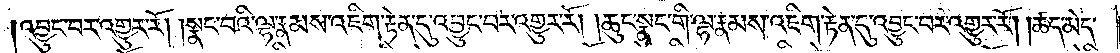འབྱུང་བར་འགྱུར་རོ། །སྣང་བའི་ལྷ་རྣམས་འཇིག་རྟེན་དུ་འབྱུང་བར་འགྱུར་རོ། །ཆུང་སྣང་གི་ལྷ་རྣམས་འཇིག་རྟེན་དུ་འབྱུང་བར་འགྱུར་རོ། །ཚད་མེད་
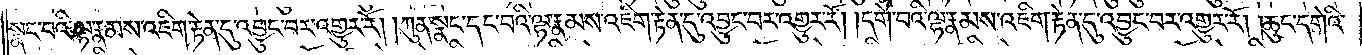སྣང་བའི་ལྷ་རྣམས་འཇིག་རྟེན་དུ་འབྱུང་བར་འགྱུར་རོ། །ཀུན་སྣང་དང་བའི་ལྷ་རྣམས་འཇིག་རྟེན་དུ་འབྱུང་བར་འགྱུར་རོ། །དགེ་བའི་ལྷ་རྣམས་འཇིག་རྟེན་དུ་འབྱུང་བར་འགྱུར་རོ། །ཆུང་དགེའི་
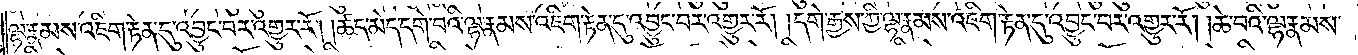ལྷ་རྣམས་འཇིག་རྟེན་དུ་འབྱུང་བར་འགྱུར་རོ། །ཚད་མེད་དགེ་བའི་ལྷ་རྣམས་འཇིག་རྟེན་དུ་འབྱུང་བར་འགྱུར་རོ། །དགེ་རྒྱས་ཀྱི་ལྷ་རྣམས་འཇིག་རྟེན་དུ་འབྱུང་བར་འགྱུར་རོ། །ཆེ་བའི་ལྷ་རྣམས་
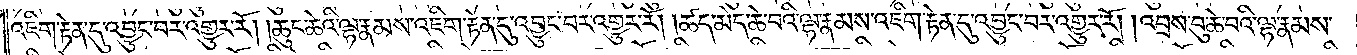འཇིག་རྟེན་དུ་འབྱུང་བར་འགྱུར་རོ། །ཆུང་ཆེའི་ལྷ་རྣམས་འཇིག་རྟེན་དུ་འབྱུང་བར་འགྱུར་རོ། །ཚད་མེད་ཆེ་བའི་ལྷ་རྣམས་འཇིག་རྟེན་དུ་འབྱུང་བར་འགྱུར་རོ། །འབྲས་བུ་ཆེ་བའི་ལྷ་རྣམས་
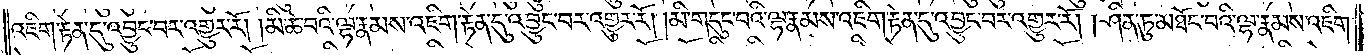འཇིག་རྟེན་དུ་འབྱུང་བར་འགྱུར་རོ། །མི་ཆེ་བའི་ལྷ་རྣམས་འཇིག་རྟེན་དུ་འབྱུང་བར་འགྱུར་རོ། །མི་གདུང་བའི་ལྷ་རྣམས་འཇིག་རྟེན་དུ་འབྱུང་བར་འགྱུར་རོ། །ཤིན་ཏུ་མཐོང་བའི་ལྷ་རྣམས་འཇིག་
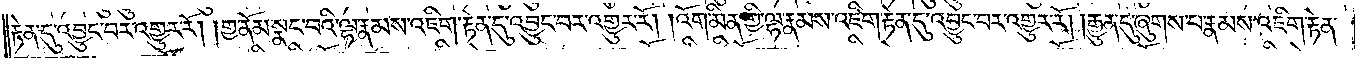རྟེན་དུ་འབྱུང་བར་འགྱུར་རོ། །གྱ་ནོམ་སྣང་བའི་ལྷ་རྣམས་འཇིག་རྟེན་དུ་འབྱུང་བར་འགྱུར་རོ། །འོག་མིན་གྱི་ལྷ་རྣམས་འཇིག་རྟེན་དུ་འབྱུང་བར་འགྱུར་རོ། །རྒྱུན་དུ་ཞུགས་པ་རྣམས་འཇིག་རྟེན་
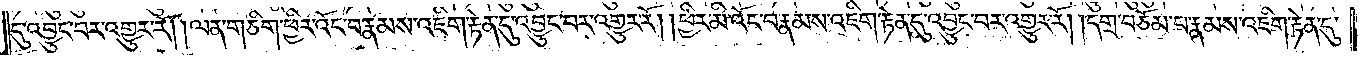དུ་འབྱུང་བར་འགྱུར་རོ། །ལན་གཅིག་ཕྱིར་འོང་བ་རྣམས་འཇིག་རྟེན་དུ་འབྱུང་བར་འགྱུར་རོ། །ཕྱིར་མི་འོང་བ་རྣམས་འཇིག་རྟེན་དུ་འབྱུང་བར་འགྱུར་རོ། །དགྲ་བཅོམ་པ་རྣམས་འཇིག་རྟེན་དུ་
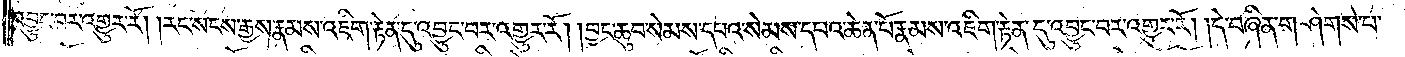འབྱུང་བར་འགྱུར་རོ། །རང་སངས་རྒྱས་རྣམས་འཇིག་རྟེན་དུ་འབྱུང་བར་འགྱུར་རོ། །བྱང་ཆུབ་སེམས་དཔའ་སེམས་དཔའ་ཆེན་པོ་རྣམས་འཇིག་རྟེན་དུ་འབྱུང་བར་འགྱུར་རོ། །དེ་བཞིན་གཤེགས་པ་
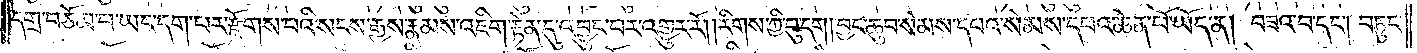དགྲ་བཅོམ་པ་ཡང་དག་པར་རྫོགས་པའི་སངས་རྒྱས་རྣམས་འཇིག་རྟེན་དུ་འབྱུང་བར་འགྱུར་རོ། །རིགས་ཀྱི་བུ་དག། བྱང་ཆུབ་སེམས་དཔའ་སེམས་དཔའ་ཆེན་པོ་ཡོད་ན། བཟའ་བ་དང༌། བཏུང་
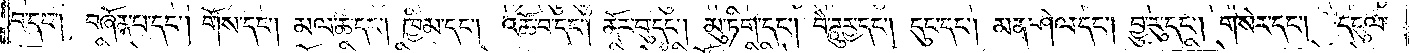བ་དང༌། བཞོན་པ་དང༌། གོས་དང༌། མལ་ཆ་དང༌། ཁྱིམ་དང༌། འཚོ་བ་དང༌། ནོར་བུ་དང༌། མུ་ཏིག་དང༌། བཻ་ཌཱུཪྻ་དང༌། དུང་དང༌། མན་ཤེལ་དང༌། བྱུ་རུ་དང༌། གསེར་དང༌། དངུལ་
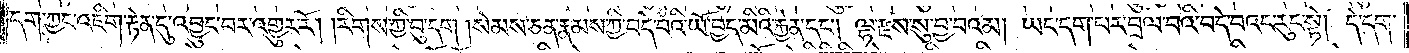དག་ཀྱང་འཇིག་རྟེན་དུ་འབྱུང་བར་འགྱུར་རོ། །རིགས་ཀྱི་བུ་དག །སེམས་ཅན་རྣམས་ཀྱི་བདེ་བའི་ཡོ་བྱད་མིའི་རྐྱེན་དང༌། ལྷ་རྫས་སུ་བྱ་བའམ། ཡང་དག་པར་བྲལ་པའི་བདེ་བའང་རུང་སྟེ། དེ་དག་
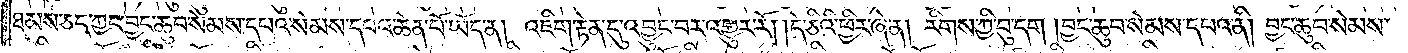ཐམས་ཅད་ཀྱང་བྱང་ཆུབ་སེམས་དཔའ་སེམས་དཔའ་ཆེན་པོ་ཡོད་ན། འཇིག་རྟེན་དུ་འབྱུང་བར་འགྱུར་རོ། །དེ་ཅིའི་ཕྱིར་ཞེ་ན། རིགས་ཀྱི་བུ་དག །བྱང་ཆུབ་སེམས་དཔའ་ནི། བྱང་ཆུབ་སེམས་
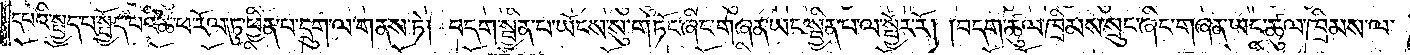དཔའི་སྤྱད་པ་སྤྱོད་པའི་ཚེ་ཕ་རོལ་ཏུ་ཕྱིན་པ་དྲུག་ལ་གནས་ཏེ། བདག་སྦྱིན་པ་ཡོངས་སུ་གཏོང་ཞིང་གཞན་ཡང་སྦྱིན་པ་ལ་སྦྱོར་རོ། །བདག་ཚུལ་ཁྲིམས་སྲུང་ཞིང་གཞན་ཡང་ཚུལ་ཁྲིམས་ལ་
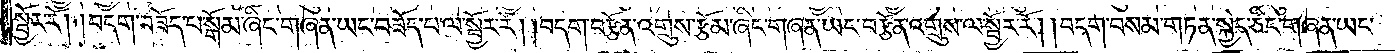སྦྱོར་རོ། །བདག་བཟོད་པ་སྒོམ་ཞིང་གཞན་ཡང་བཟོད་པ་ལ་སྦྱོར་རོ། །བདག་བརྩོན་འགྲུས་རྩོམ་ཞིང་གཞན་ཡང་བརྩོན་འགྲུས་ལ་སྦྱོར་རོ། །བདག་བསམ་གཏན་སྐྱེད་ཅིང་གཞན་ཡང་
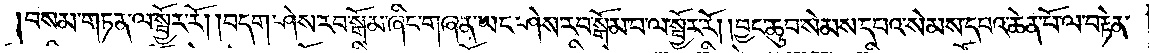བསམ་གཏན་ལ་སྦྱོར་རོ། །བདག་ཤེས་རབ་སྒོམ་ཞིང་གཞན་ཡང་ཤེས་རབ་སྒོམ་པ་ལ་སྦྱོར་རོ། །བྱང་ཆུབ་སེམས་དཔའ་སེམས་དཔའ་ཆེན་པོ་ལ་བརྟེན་
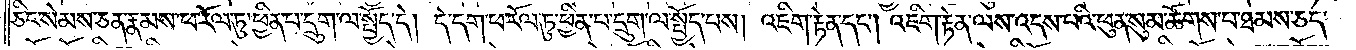ཅིང་སེམས་ཅན་རྣམས་ཕ་རོལ་ཏུ་ཕྱིན་པ་དྲུག་ལ་སྤྱོད་དེ། དེ་དག་ཕ་རོལ་ཏུ་ཕྱིན་པ་དྲུག་ལ་སྤྱོད་པས། འཇིག་རྟེན་དང༌། འཇིག་རྟེན་ལས་འདས་པའི་ཕུན་སུམ་ཚོགས་པ་ཐམས་ཅད་
